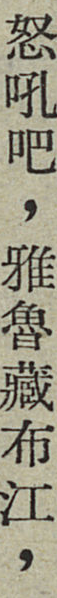怒吼吧，雅魯藏布江，
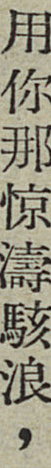用你那惊濤駭浪，
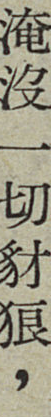淹沒一切豺狼，
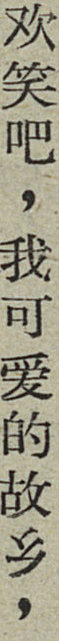欢笑吧，我可爱的故乡，
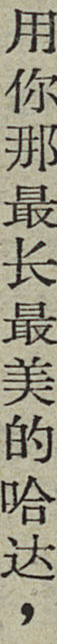用你那最长最美的哈达，
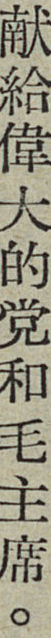献給偉大的党和毛主席。
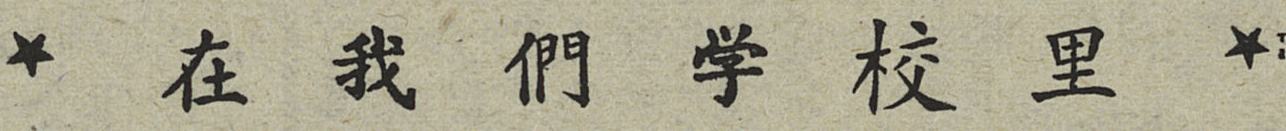★ 在 我 們 学 校 里 ★
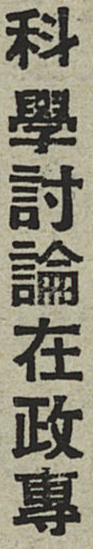科學討論在政專
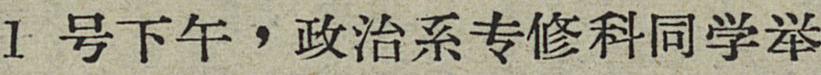1号下午，政治系专修科同学举
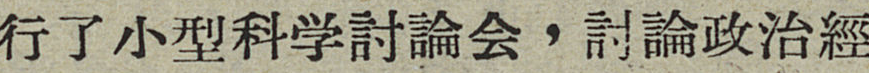行了小型科学討論会，討論政治經
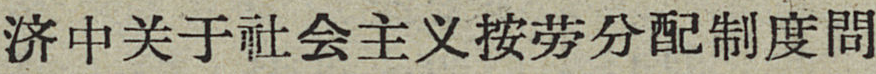济中关于社会主义按劳分配制度問
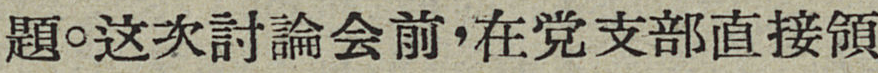題。这次討論会前，在党支部直接領
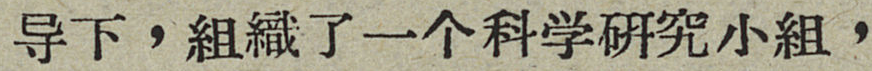导下，組織了一个科学研究小組，
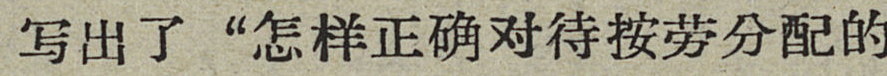写出了“怎样正确对待按劳分配的
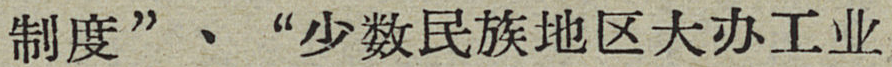制度”、“少数民族地区大办工业
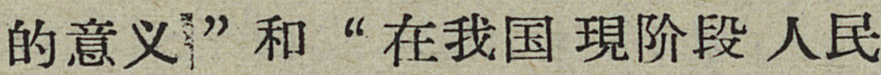的意义”和“在我国現阶段人民
